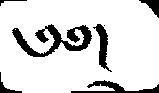༄༅།
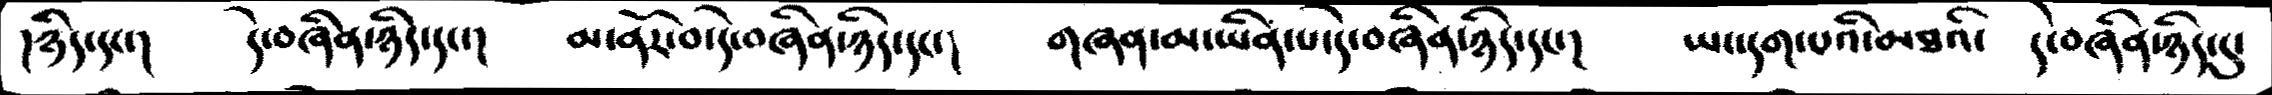།ཉིད་དང་།    དེ་བཞིན་ཉིད་དང་།  མ་ནོར་བ་དེ་བཞིན་ཉིད་དང་།  གཞན་མ་ཡིན་པ་དེ་བཞིན་ཉིད་དང་།   ཡང་དག་པའི་མཐའི་   དེ་བཞིན་ཉིད་དུ་
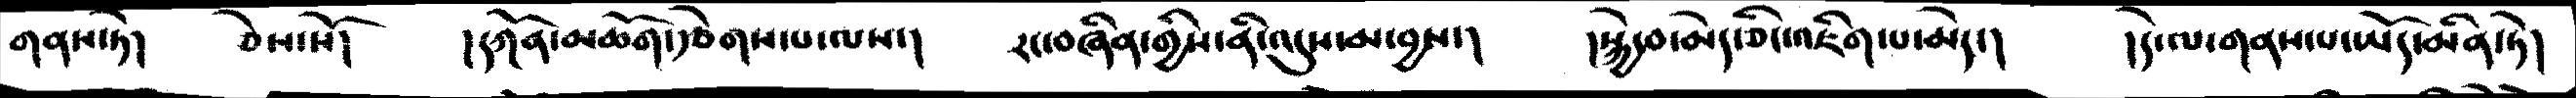གནས་ཏེ།   ཅེས་སོ།   །དཀོན་མཆོག་རྩེགས་པ་ལས་།   རང་བཞིན་གྱིས་ནི་འདུས་མ་བྱས་།   །སྐྱེ་བ་མེད་ཅིང་འཇིག་པ་མེད་།  །དེ་ལ་གནས་པ་ཡོད་མིན་ཏེ།
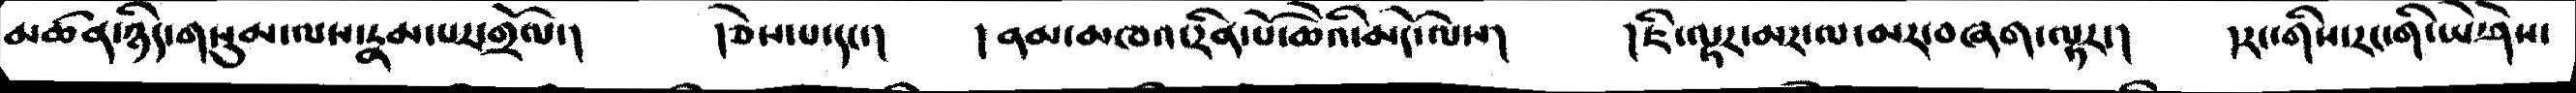མཚན་ཉིད་གསུམ་ལས་རྣམ་པར་གྲོལ་།   །ཅེས་པ་དང་།  །ནམ་མཁའ་རིན་པོ་ཆེའི་མདོ་ལས།    །ཇི་ལྟར་མར་ལ་མར་བཞག་ལྟར་།   །རང་གིས་རང་གི་ཡེ་ཤེས་
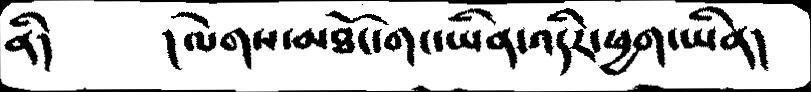ནི།      །ལེགས་མཐོང་གང་ཡིན་འདིར་ཕྱག་ཡིན།
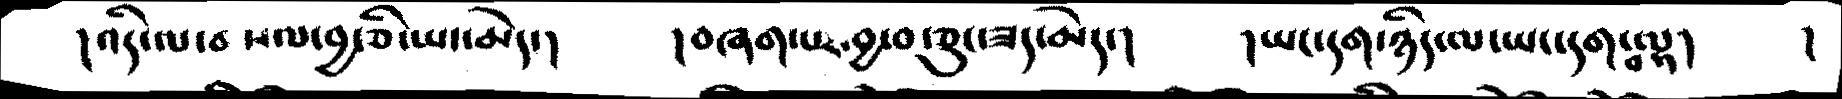། འདི་ལ་བསལ་བྱ་ཅི་ཡང་མེད་།   །བཞག་པར་བྱ་བ་ཅུང་ཟད་མེད་།   །ཡང་དག་ཉིད་ལ་ཡང་དག་བལྟ།    །
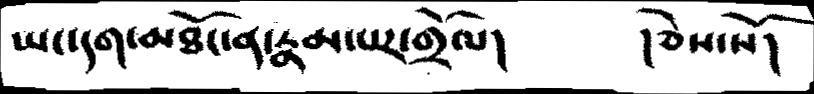ཡང་དག་མཐོང་ན་རྣམ་པར་གྲོལ།      །ཅེས་སོ།
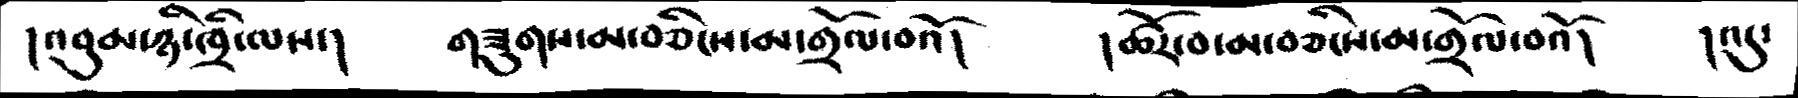།འབུམ་ཉི་ཁྲི་ལས་།       གཟུགས་མ་བཅིངས་མ་གྲོལ་བའོ།   །ཚོར་བ་མ་བཅིངས་མ་གྲོལ་བའོ།      །འདུ་
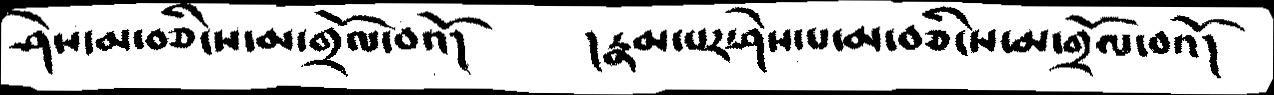ཤེས་མ་བཅིངས་མ་གྲོལ་བའོ།     །རྣམ་པར་ཤེས་པ་མ་བཅིངས་མ་གྲོལ་བའོ།
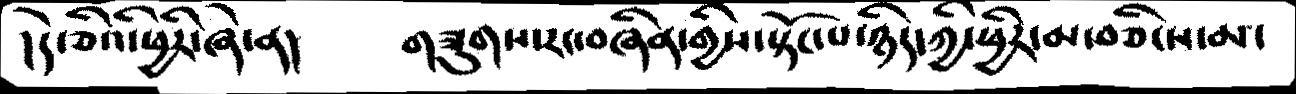།དེ་ཅིའི་ཕྱིར་ཞེ་ན།     གཟུགས་རང་བཞིན་གྱིས་སྟོང་ོཔ་ཉིད་ཀྱི་ཕྱིར་མ་བཅིངས་མ་
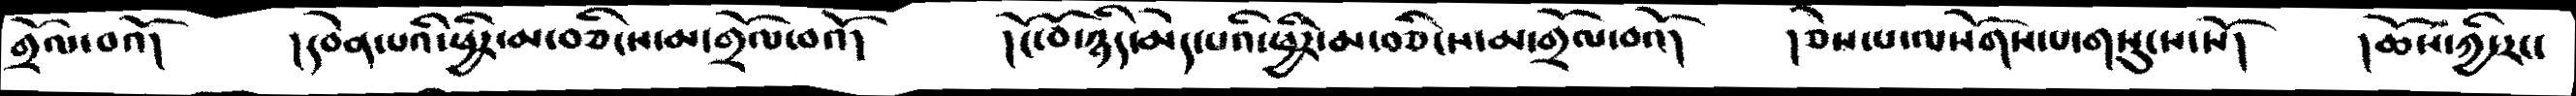གྲོལ་བའོ།    །དབེན་པའི་ཕྱིར་མ་བཅིངས་མ་གྲོལ་བའོ།   །ངོ་བོ་ཉིད་མེད་པའི་ཕྱིར་མ་བཅིངས་མ་གྲོལ་བའོ།   །ཅེས་པ་ལསོགས་པ་གསུངས་སོ།  །ཆོས་ཀྱི་རང་
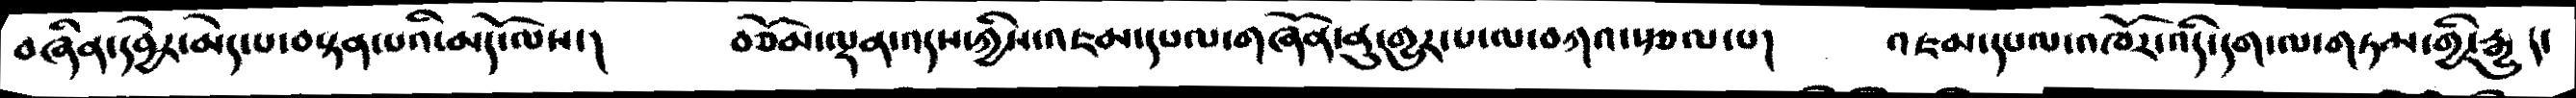བཞིན་དབྱེར་མེད་པ་བསྟན་པའི་མདོ་ལས་།    བཅོམ་ལྡན་འདས་ཀྱིས་འཇམ་དཔལ་གཞོན་ནུ་གྱུར་པ་ལ་བཀའ་སྩལ་པ།   འཇམ་དཔལ་འཁོར་འདི་དག་ལ་གཏམ་གྱི་རྒྱུད་
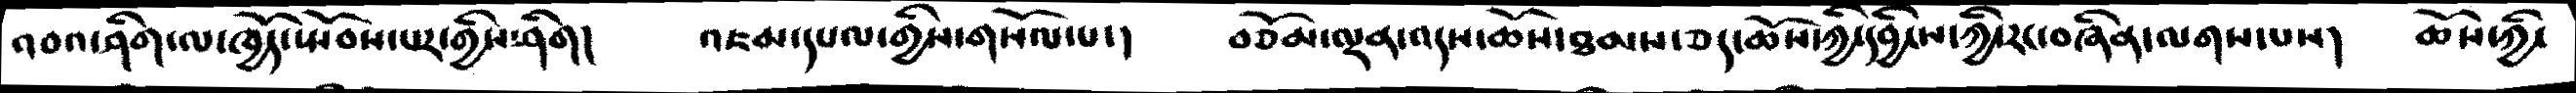འབའ་ཤིག་ལ་ཁྱོད་སྤོབས་པར་གྱིས་ཤིག།   འཇམ་དཔལ་གྱིས་གསོལ་པ་།   བཅོམ་ལྡན་འདས་ཆོས་ཐམས་ཅད་ཆོས་ཀྱི་དབྱིངས་ཀྱི་རང་བཞིན་ལགས་པས།  ཆོས་ཀྱི་
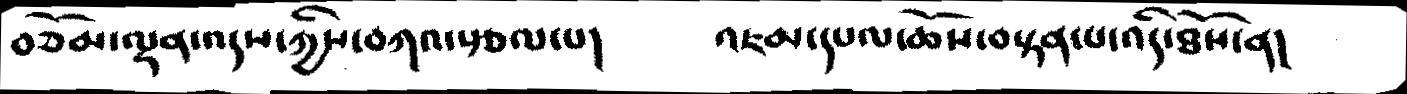བཅོམ་ལྡན་འདས་ཀྱིས་བཀའ་སྩལ་པ།  འཇམ་དཔལ་ཆོས་བསྟན་པ་འདི་ཐོས་ན།
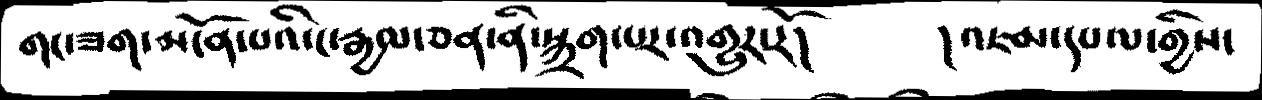གང་ཟག་མངོན་པའི་ང་རྒྱལ་ཅན་ནི་སྐྲག་པར་འགྱུར་རོ།   །འཇམ་དཔལ་གྱིས་
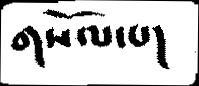གསོལ་པ།
